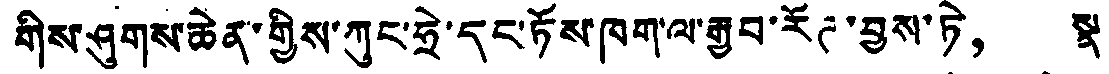གིས་ཤུགས་ཆེན་གྱིས་ཀུང་ཧྲེ་དང་ཏོས་ཁག་ལ་རྒྱབ་རོཊ་བྱས་ཏེ， སྣ
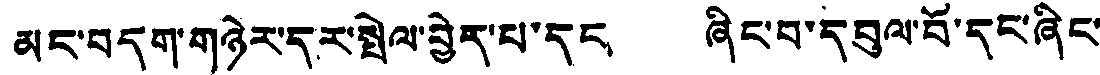མང་བདག་གཉེར་དར་སྤེལ་བྱེད་པ་དང ཞིང་བ་དབུལ་བོ་དང་ཞིང་
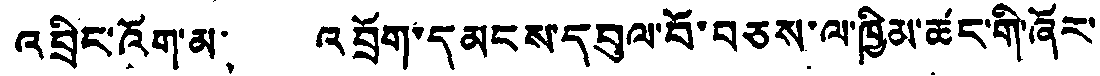འབྲིང་འོག་མ； འབྲོག་དམངས་དབུལ་བོ་བཅས་ལ་ཁྱིམ་ཚང་གི་ཞོར་
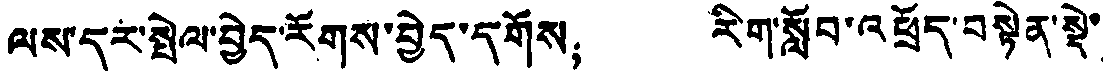ལས་དར་སྤེལ་བྱེད་རོགས་བྱེད་དགོས； རིག་སློབ་འཕྲོད་བསྟེན་སྡེ་
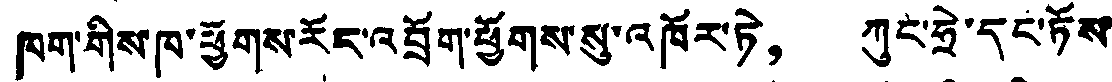ཁག་གིས་ཁ་ཕྱོགས་རོང་འབྲོག་ཕྱོགས་སུ་འཁོར་ཏེ， ཀུང་ཧྲེ་དང་ཏོས
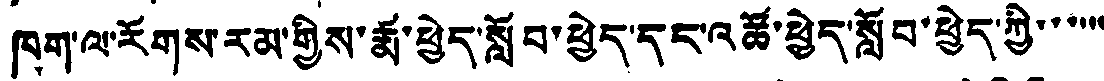ཁག་ལ་རོགས་རམ་གྱིས་རྨ་ཕྱེད་སློབ་ཕྱེད་དང་འཚོ་ཕྱེད་སློབ་ཕྱེད་ཀྱི་་་་་་
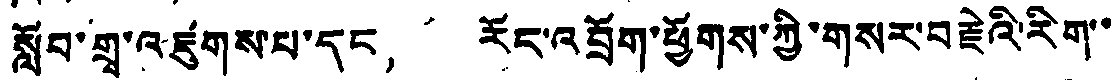སློབ་གྲྭ་འཛུགས་པ་དང， རོང་འབྲོག་ཕྱོགས་ཀྱི་གསར་བརྗེའི་རིག་་
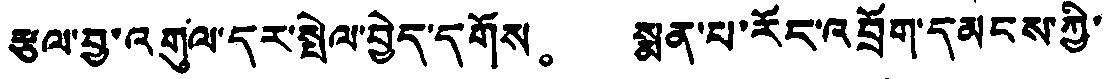རྩལ་བྱ་འགུལ་དར་སྤེལ་བྱེད་དགོས。 སྨན་པ་རོང་འབྲོག་དམངས་ཀྱི་
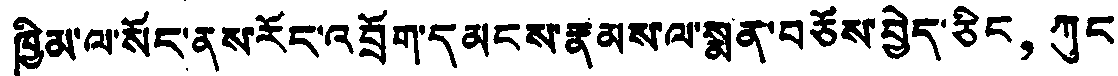ཁྱིམ་ལ་སོང་ནས་རོང་འབྲོག་དམངས་རྣམས་ལ་སྨན་བཅོས་བྱེད་ཅིང，ཀུང
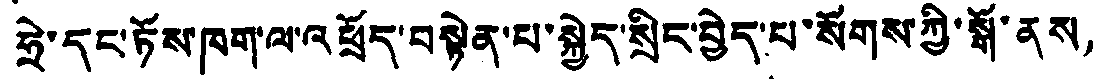ཧྲེ་དང་ཏོས་ཁག་ལ་འཕྲོད་བསྟེན་པ་སྐྱེད་སྲིང་བྱེད་པ་སོགས་ཀྱི་སྒོ་ནས，
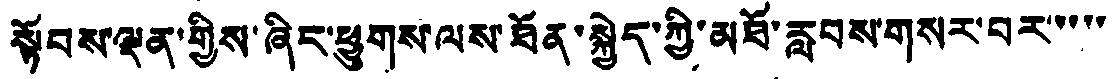སྟོབས་ལྡན་གྱིས་ཞིང་ཕྱུགས་ལས་ཐོན་སྐྱེད་ཀྱི་མཐོ་རླབས་གསར་བར་་་་་
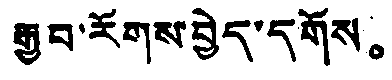རྒྱབ་རོགས་བྱེད་དགོས。
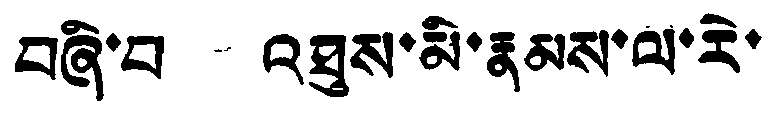བཞི་བ འཐུས་མི་རྣམས་ལ་རེ་
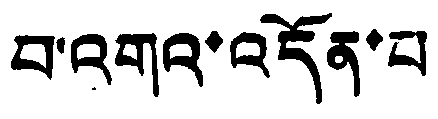བ་འགའ་འདོན་པ
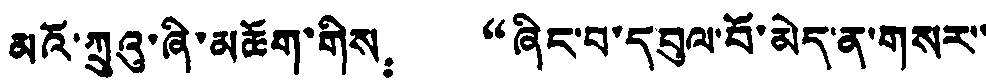མའོ་ཀྲུའུ་ཞི་མཆོག་གིས： “ཞིང་བ་དབུལ་པོ་མེད་ན་གསར་
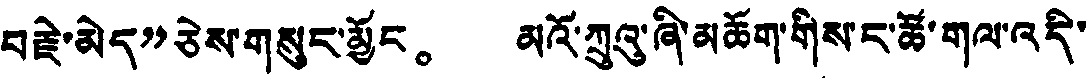བརྗེ་མེད”ཅེས་གསུང་མྱོང。 མའོ་ཀྲུའུ་ཞི་མཆོག་གིས་ང་ཚོ་གལ་འདི་
